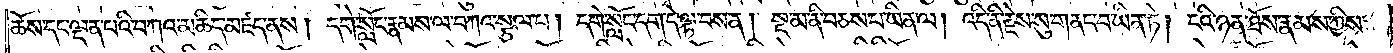ཆོས་དང་ལྡན་པའི་བཀའ་མཆིད་མཛད་ནས། དགེ་སློང་རྣམས་ལ་བཀའ་སྩལ་པ། དགེ་སློང་དག་དེ་ལྟ་བས་ན། སྔ་མ་ནི་བཅས་པ་ཡིན་ལ། འདི་ནི་རྗེས་སུ་གནང་བ་ཡིན་ཏེ། ངའི་ཉན་ཐོས་རྣམས་ཀྱིས་
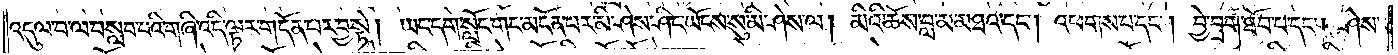འདུལ་བ་ལ་བསླབ་པའི་གཞི་འདི་ལྟར་གདོན་པར་བྱ་སྟེ། ཡང་དགེ་སློང་གང་མངོན་པར་མི་ཤེས་ཤིང་ཡོངས་སུ་མི་ཤེས་ལ། མིའི་ཆོས་བླ་མ་མཐའ་དང༌། འཕགས་པ་དང༌། བྱེ་བྲག་ཐོབ་པ་དང༌། ཤེས་
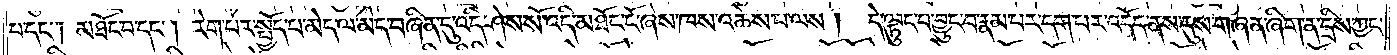པ་དང༌། མཐོང་བ་དང༌། རེག་པར་སྤྱོད་པ་མེད་ལ་མེད་བཞིན་དུ་འདི་ཤེས་སོ་འདི་མཐོང་ངོ་ཞེས་ཁས་འཆེས་པ་ལས།   དེ་ལྟུང་བ་བྱུང་བ་རྣམ་པར་དག་པར་འདོད་ནས་དུས་གཞན་ཞིག་ན་དྲིས་ཀྱང་ན
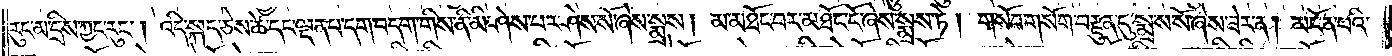རུང་མ་དྲིས་ཀྱང་རུང༌། འདི་སྐད་ཅེས་ཚེ་དང་ལྡན་པ་དག་བདག་གིས་ནི་མི་ཤེས་པར་ཤེས་སོ་ཞེས་སྨྲས། མ་མཐོང་བར་མཐོང་ངོ་ཞེས་སྨྲས་ཏེ། གསོབ་གསོག་བརྫུན་དུ་སྨྲས་སོ་ཞེས་ཟེར་ན། མངོན་པའི་
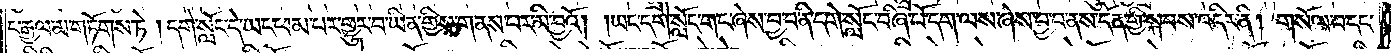ང་རྒྱལ་མ་གཏོགས་ཏེ། དགེ་སློང་དེ་ཡང་ཕམ་པར་གྱུར་པ་ཡིན་གྱིས་གནས་པར་མི་བྱའོ། །ཡང་དགེ་སློང་གང་ཞེས་བྱ་བ་ནི་དགེ་སློང་བཞི་པོ་དག་ལས་ཞེས་བྱ་བ་ནས་དོན་གྱི་སྐབས་འདིར་ནི། གསོལ་བ་དང་
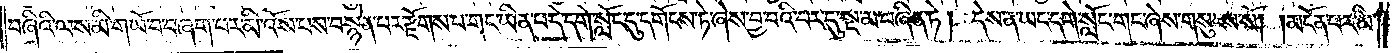བཞིའི་ལས་མི་གཡོ་བ་བཞག་པར་མི་འོས་པས་བསྙེན་པར་རྫོགས་པ་གང་ཡིན་པ་དེ་དགེ་སློང་དུ་དགོངས་ཏེ་ཞེས་བྱ་བའི་བར་དུ་སྔ་མ་བཞིན་ཏེ། དེས་ན་ཡང་དགེ་སློང་གང་ཞེས་གསུངས་སོ། །མངོན་པར་མི་
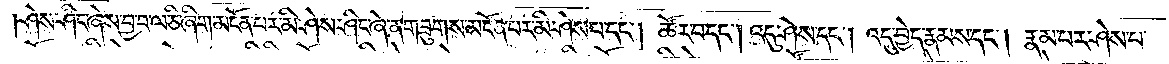།ཤེས་ཤིང་ཞེས་བྱ་བ་ལ་ཅི་ཞིག་མངོན་པར་མི་ཤེས་ཤིང་ཞེ་ན་གཟུགས་མངོན་པར་མི་ཤེས་པ་དང༌། ཚོར་བ་དང༌། འདུ་ཤེས་དང༌། འདུ་བྱེད་རྣམས་དང༌། རྣམ་པར་ཤེས་པ་
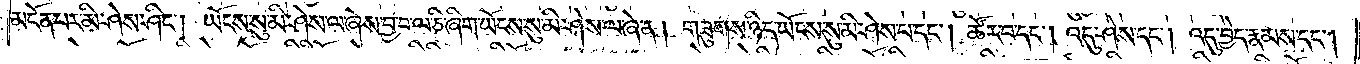མངོན་པར་མི་ཤེས་ཤིང༌། ཡོངས་སུ་མི་ཤེས་ལ་ཞེས་བྱ་བ་ལ་ཅི་ཞིག་ཡོངས་སུ་མི་ཤེས་ལ་ཞེ་ན། གཟུགས་ཉིད་ཡོངས་སུ་མི་ཤེས་པ་དང༌། ཚོར་བ་དང༌། འདུ་ཤེས་དང༌། འདུ་བྱེད་རྣམས་དང༌།
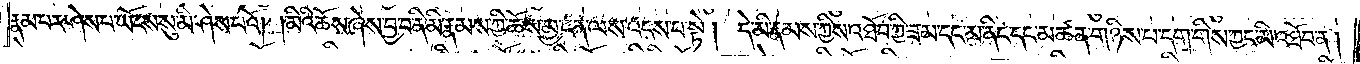རྣམ་པར་ཤེས་པ་ཡོངས་སུ་མི་ཤེས་པའོ། །མིའི་ཆོས་ཞེས་བྱ་བ་ནི་མི་རྣམས་ཀྱི་ཆོས་མྱ་ངན་ལས་འདས་པ་སྟེ། དེ་མི་རྣམས་ཀྱིས་འཐོབ་ཀྱི་ཟ་མ་དང་མ་ནིང་དང་མཚན་གཉིས་པ་དག་གིས་ཀྱང་མི་འཐོབ་ན།
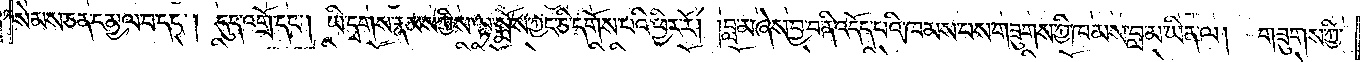སེམས་ཅན་དམྱལ་བ་དང༌། དུད་འགྲོ་དང༌། ཡི་དྭགས་རྣམས་ཀྱིས་ལྟ་སྨོས་ཀྱང་ཅི་དགོས་པའི་ཕྱིར་རོ། །བླ་མ་ཞེས་བྱ་བ་ནི་འདོད་པའི་ཁམས་པས་གཟུགས་ཀྱི་ཁམས་བླ་མ་ཡིན་ལ། གཟུགས་ཀྱི་
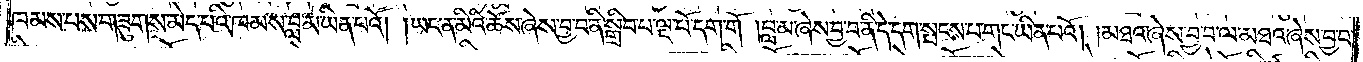ཁམས་པས་གཟུགས་མེད་པའི་ཁམས་བླ་མ་ཡིན་པའོ། །ཡང་ན་མིའི་ཆོས་ཞེས་བྱ་བ་ནི་སྒྲིབ་པ་ལྔ་པོ་དག་གོ །བླ་མ་ཞེས་བྱ་བ་ནི་དེ་དག་སྤངས་པ་གང་ཡིན་པའོ། །མཐའ་ཞེས་བྱ་བ་ལ་མཐའ་ཞེས་བྱ་བ་
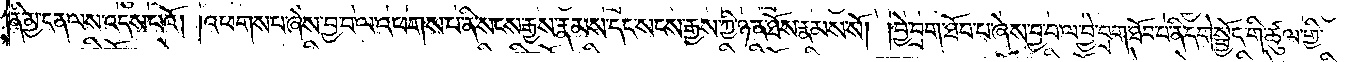ནི་མྱ་ངན་ལས་འདས་པའོ། །འཕགས་པ་ཞེས་བྱ་བ་ལ་འཕགས་པ་ནི་སངས་རྒྱས་རྣམས་དང་སངས་རྒྱས་ཀྱི་ཉན་ཐོས་རྣམས་སོ། །བྱེ་བྲག་ཐོབ་པ་ཞེས་བྱ་བ་ལ་བྱེ་བྲག་ཐོབ་པ་ནི་དགེ་སྦྱོང་གི་ཚུལ་གྱི་
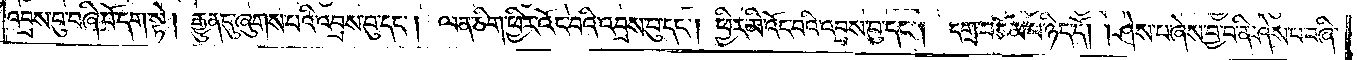འབྲས་བུ་བཞི་པོ་དག་སྟེ། རྒྱུན་དུ་ཞུགས་པའི་འབྲས་བུ་དང༌། ལན་ཅིག་ཕྱིར་འོང་བའི་འབྲས་བུ་དང༌། ཕྱིར་མི་འོང་བའི་འབྲས་བུ་དང༌། དགྲ་བཅོམ་པ་ཉིད་དོ། །ཤེས་པ་ཞེས་བྱ་བ་ནི་ཤེས་པ་བཞི་
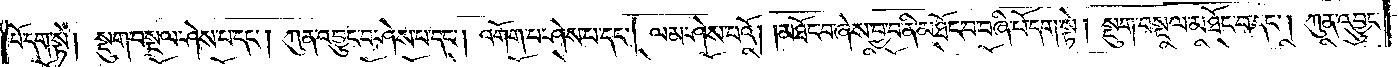པོ་དག་སྟེ། སྡུག་བསྔལ་ཤེས་པ་དང༌། ཀུན་འབྱུང་བ་ཤེས་པ་དང༌། འགོག་པ་ཤེས་པ་དང༌། ལམ་ཤེས་པའོ། །མཐོང་བ་ཞེས་བྱ་བ་ནི་མཐོང་བ་བཞི་པོ་དག་སྟེ། སྡུག་བསྔལ་མཐོང་བ་དང༌། ཀུན་འབྱུང་
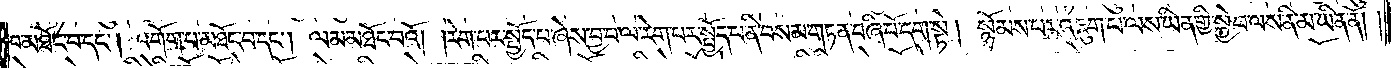བ་མཐོང་བ་དང༌། འགོག་པ་མཐོང་བ་དང༌། ལམ་མཐོང་བའོ། །རེག་པར་སྤྱོད་པ་ཞེས་བྱ་བ་ལ་རེག་པར་སྤྱོད་པ་ནི་བསམ་གཏན་བཞི་པོ་དག་སྟེ། སྙོམས་པར་འཇུག་པ་ལས་ཡིན་གྱི་སྐྱེ་བ་ལས་ནི་མ་ཡིན་ནོ། །
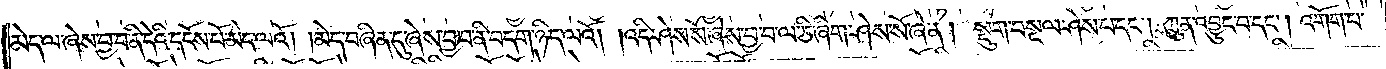མེད་ལ་ཞེས་བྱ་བ་ནི་དེའི་དངོས་པོ་མེད་ལའོ། །མེད་བཞིན་དུ་ཞེས་བྱ་བ་ནི་བདག་ཉིད་ལའོ། །འདི་ཤེས་སོ་ཞེས་བྱ་བ་ལ་ཅི་ཞིག་ཤེས་སོ་ཞེ་ན། སྡུག་བསྔལ་ཤེས་པ་དང༌། ཀུན་འབྱུང་བ་དང༌། འགོག་པ་
